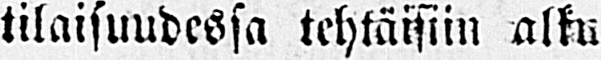tilaisuudessa tehtäisiin alku
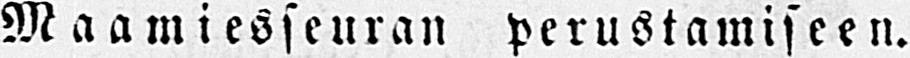Maamiesseuran perustamiseen.
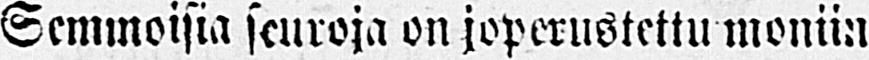Semmoisia seuroja on joperustettu moniin
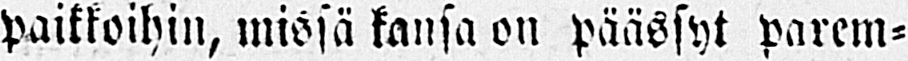paikkoihin, missä kansa on päässyt parem-
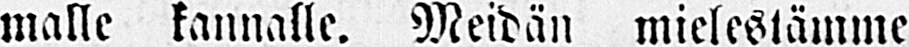malle kannalle. Meidän mielestämme
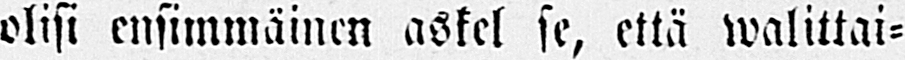olisi ensimmäinen askel se, että walittai-
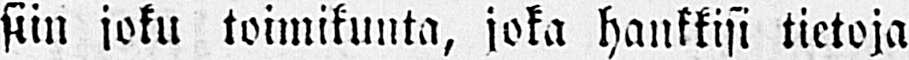siin joku toimikunta, joka hankkisi tietoja
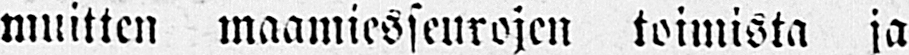muitten maamiesseurojen toimista ja
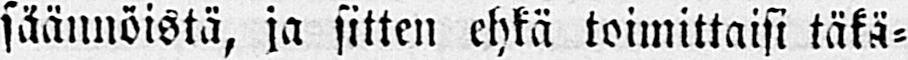säännöistä, ja sitten ehkä toimittaisi täkä-
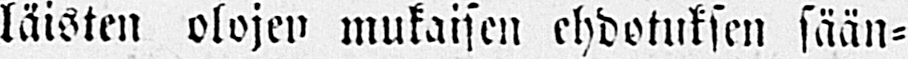läisten olojen mukaisen ehdotuksen sään-
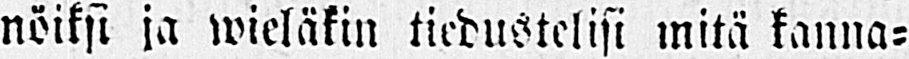nöiksi ja wieläkin tiedustelisi mitä kanna-
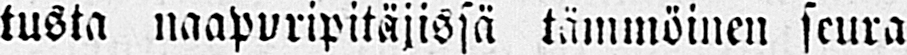tusta naapuripitäjissä tämmöinen seura
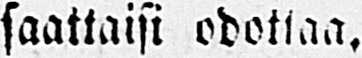saattaisi odottaa.
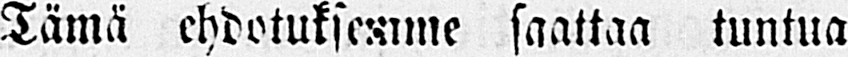Tämä ehdotuksemme saattaa tuntua
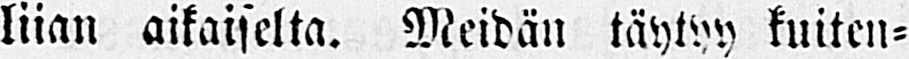liian aikaiselta. Meidän täytyy kuiten-
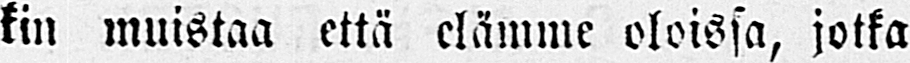kin muistaa että elämme oloissa, jotka
